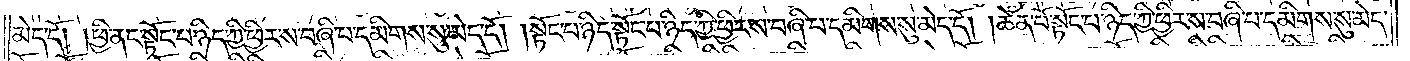མེད་དོ༏ ༏ཕྱི་ནང་སྟོང་པ་ཉིད་ཀྱི་ཕྱིར་ས་བཞི་པ་དམིགས་སུ་མེད་དོ། །སྟོང་པ་ཉིད་སྟོང་པ་ཉིད་ཀྱི་ཕྱིར་ས་བཞི་པ་དམིགས་སུ་མེད་དོ། །ཆེན་པོ་སྟོང་པ་ཉིད་ཀྱི་ཕྱིར་ས་བཞི་པ་དམིགས་སུ་མེད་
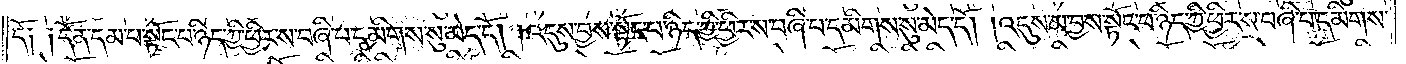དོ༏ ༏དོན་དམ་པ་སྟོང་པ་ཉིད་ཀྱི་ཕྱིར་ས་བཞི་པ་དམིགས་སུ་མེད་དོ། །འདུས་བྱས་སྟོང་པ་ཉིད་ཀྱི་ཕྱིར་ས་བཞི་པ་དམིགས་སུ་མེད་དོ། །འདུས་མ་བྱས་སྟོང་པ་ཉིད་ཀྱི་ཕྱིར་ས་བཞི་པ་དམིགས་
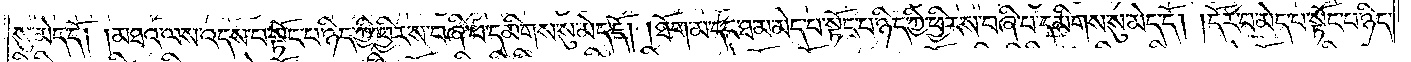སུ་མེད་དོ། །མཐའ་ལས་འདས་པ་སྟོང་པ་ཉིད་ཀྱི་ཕྱིར་ས་བཞི་པ་དམིགས་སུ་མེད་དོ། །ཐོག་མ་དང་ཐ་མ་མེད་པ་སྟོང་པ་ཉིད་ཀྱི་ཕྱིར་ས་བཞི་པ་དམིགས་སུ་མེད་དོ། །དོར་བ་མེད་པ་སྟོང་པ་ཉིད་
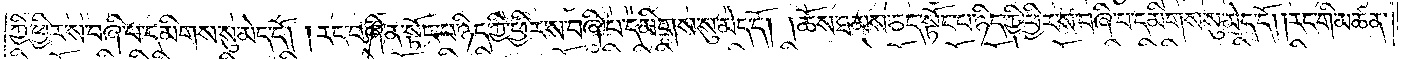ཀྱི་ཕྱིར་ས་བཞི་པ་དམིགས་སུ་མེད་དོ། །རང་བཞིན་སྟོང་པ་ཉིད་ཀྱི་ཕྱིར་ས་བཞི་པ་དམིགས་སུ་མེད་དོ། །ཆོས་ཐམས་ཅད་སྟོང་པ་ཉིད་ཀྱི་ཕྱིར་ས་བཞི་པ་དམིགས་སུ་མེད་དོ། །རང་གི་མཚན་
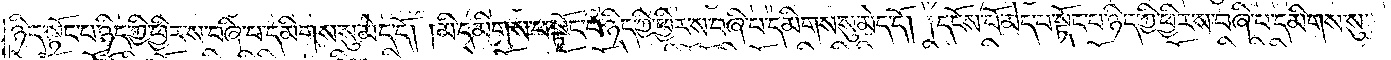ཉིད་སྟོང་པ་ཉིད་ཀྱི་ཕྱིར་ས་བཞི་པ་དམིགས་སུ་མེད་དོ། །མི་དམིགས་པ་སྟོང་པ་ཉིད་ཀྱི་ཕྱིར་ས་བཞི་པ་དམིགས་སུ་མེད་དོ། །དངོས་པོ་མེད་པ་སྟོང་པ་ཉིད་ཀྱི་ཕྱིར་ས་བཞི་པ་དམིགས་སུ་
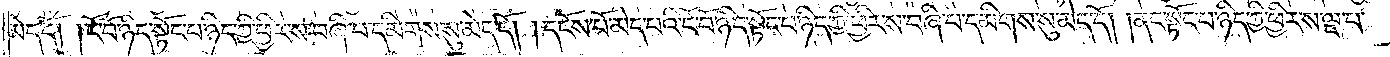མེད་དོ། །ངོ་བོ་ཉིད་སྟོང་པ་ཉིད་ཀྱི་ཕྱིར་ས་བཞི་པ་དམིགས་སུ་མེད་དོ། །དངོས་པོ་མེད་པའི་ངོ་བོ་ཉིད་སྟོང་པ་ཉིད་ཀྱི་ཕྱིར་ས་བཞི་པ་དམིགས་སུ་མེད་དོ། །ནང་སྟོང་པ་ཉིད་ཀྱི་ཕྱིར་ས་ལྔ་པ་
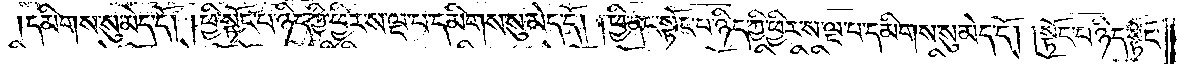དམིགས་སུ་མེད་དོ། །ཕྱི་སྟོང་པ་ཉིད་ཀྱི་ཕྱིར་ས་ལྔ་པ་དམིགས་སུ་མེད་དོ། །ཕྱི་ནང་སྟོང་པ་ཉིད་ཀྱི་ཕྱིར་ས་ལྔ་པ་དམིགས་སུ་མེད་དོ། །སྟོང་པ་ཉིད་སྟོང་
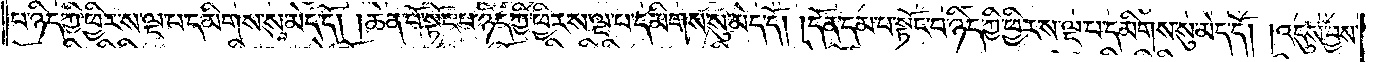པ་ཉིད་ཀྱི་ཕྱིར་ས་ལྔ་པ་དམིགས་སུ་མེད་དོ། །ཆེན་པོ་སྟོང་པ་ཉིད་ཀྱི་ཕྱིར་ས་ལྔ་པ་དམིགས་སུ་མེད་དོ། །དོན་དམ་པ་སྟོང་པ་ཉིད་ཀྱི་ཕྱིར་ས་ལྔ་པ་དམིགས་སུ་མེད་དོ། །འདུས་བྱས་
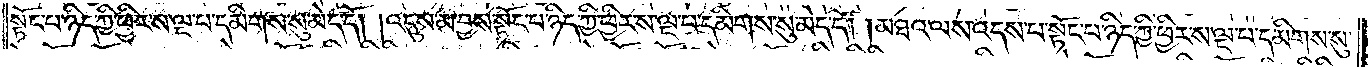སྟོང་པ་ཉིད་ཀྱི་ཕྱིར་ས་ལྔ་པ་དམིགས་སུ་མེད་དོ། །འདུས་མ་བྱས་སྟོང་པ་ཉིད་ཀྱི་ཕྱིར་ས་ལྔ་པ་དམིགས་སུ་མེད་དོ། །མཐའ་ལས་འདས་པ་སྟོང་པ་ཉིད་ཀྱི་ཕྱིར་ས་ལྔ་པ་དམིགས་སུ་
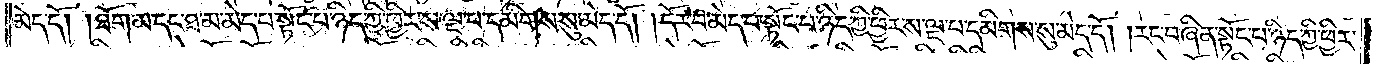མེད་དོ། །ཐོག་མ་དང་ཐ་མ་མེད་པ་སྟོང་པ་ཉིད་ཀྱི་ཕྱིར་ས་ལྔ་པ་དམིགས་སུ་མེད་དོ། །དོར་བ་མེད་པ་སྟོང་པ་ཉིད་ཀྱི་ཕྱིར་ས་ལྔ་པ་དམིགས་སུ་མེད་དོ། །རང་བཞིན་སྟོང་པ་ཉིད་ཀྱི་ཕྱིར་
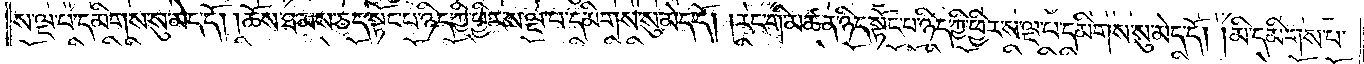ས་ལྔ་པ་དམིགས་སུ་མེད་དོ། །ཆོས་ཐམས་ཅད་སྟོང་པ་ཉིད་ཀྱི་ཕྱིར་ས་ལྔ་པ་དམིགས་སུ་མེད་དོ། །རང་གི་མཚན་ཉིད་སྟོང་པ་ཉིད་ཀྱི་ཕྱིར་ས་ལྔ་པ་དམིགས་སུ་མེད་དོ། །མི་དམིགས་པ་
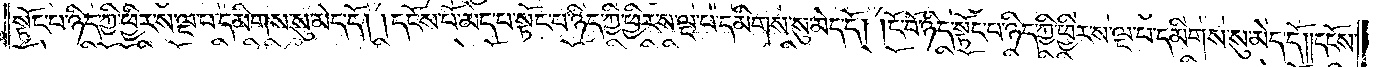སྟོང་པ་ཉིད་ཀྱི་ཕྱིར་ས་ལྔ་པ་དམིགས་སུ་མེད་དོ། །དངོས་པོ་མེད་པ་སྟོང་པ་ཉིད་ཀྱི་ཕྱིར་ས་ལྔ་པ་དམིགས་སུ་མེད་དོ། །ངོ་བོ་ཉིད་སྟོང་པ་ཉིད་ཀྱི་ཕྱིར་ས་ལྔ་པ་དམིགས་སུ་མེད་དོ། །དངོས་
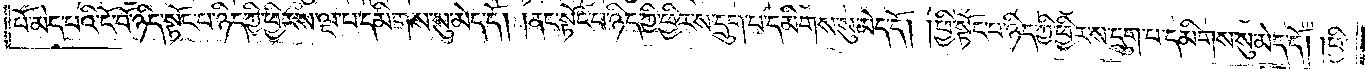པོ་མེད་པའི་ངོ་བོ་ཉིད་སྟོང་པ་ཉིད་ཀྱི་ཕྱིར་ས་ལྔ་པ་དམིགས་སུ་མེད་དོ། །ནང་སྟོང་པ་ཉིད་ཀྱི་ཕྱིར་ས་དྲུག་པ་དམིགས་སུ་མེད་དོ། །ཕྱི་སྟོང་པ་ཉིད་ཀྱི་ཕྱིར་ས་དྲུག་པ་དམིགས་སུ་མེད་དོ། །ཕྱི་
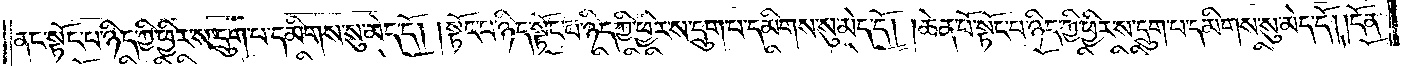ནང་སྟོང་པ་ཉིད་ཀྱི་ཕྱིར་ས་དྲུག་པ་དམིགས་སུ་མེད་དོ། །སྟོང་པ་ཉིད་སྟོང་པ་ཉིད་ཀྱི་ཕྱིར་ས་དྲུག་པ་དམིགས་སུ་མེད་དོ། །ཆེན་པོ་སྟོང་པ་ཉིད་ཀྱི་ཕྱིར་ས་དྲུག་པ་དམིགས་སུ་མེད་དོ། །དོན་
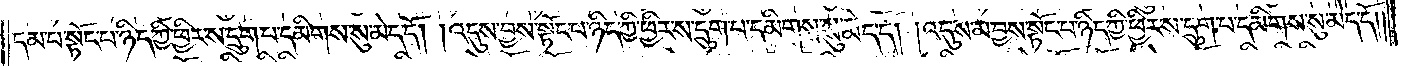དམ་པ་སྟོང་པ་ཉིད་ཀྱི་ཕྱིར་ས་དྲུག་པ་དམིགས་སུ་མེད་དོ། །འདུས་བྱས་སྟོང་པ་ཉིད་ཀྱི་ཕྱིར་ས་དྲུག་པ་དམིགས་སུ་མེད་དོ། །འདུས་མ་བྱས་སྟོང་པ་ཉིད་ཀྱི་ཕྱིར་ས་དྲུག་པ་དམིགས་སུ་མེད་དོ། །
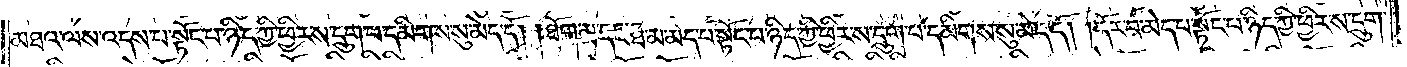མཐའ་ལས་འདས་པ་སྟོང་པ་ཉིད་ཀྱི་ཕྱིར་ས་དྲུག་པ་དམིགས་སུ་མེད་དོ། །ཐོག་མ་དང་ཐ་མ་མེད་པ་སྟོང་པ་ཉིད་ཀྱི་ཕྱིར་ས་དྲུག་པ་དམིགས་སུ་མེད་དོ། །དོར་བ་མེད་པ་སྟོང་པ་ཉིད་ཀྱི་ཕྱིར་ས་དྲུག་
